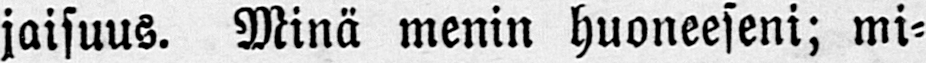jaisuus. Minä menin huoneeseni; mi-
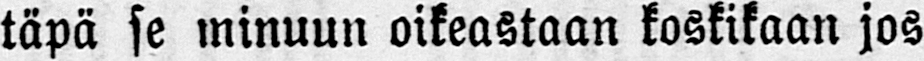täpä se minuun oikeastaan koskikaan jos
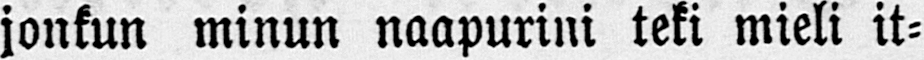jonkun minun naapurini teki mieli it-
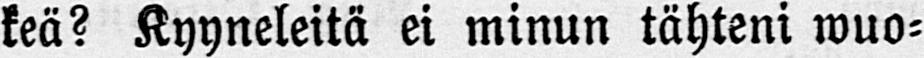keä? Kyyneleitä ei minun tähteni wuo-
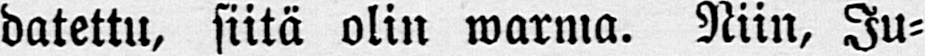datettu, siitä olin warma. Niin, Ju-
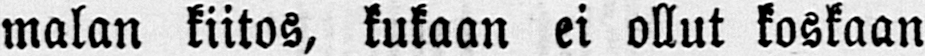malan kiitos, kukaan ei ollut koskaan
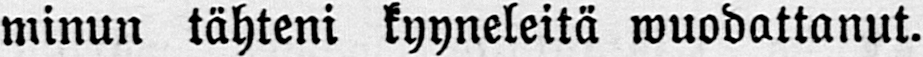minun tähteni kyyneleitä wodattanut.
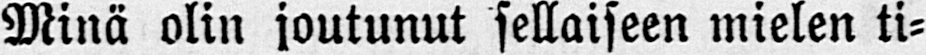Minä olin joutunut sellaiseen mielen ti-
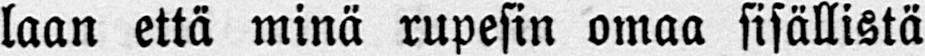laan että minä rupesin omaa sisällistä
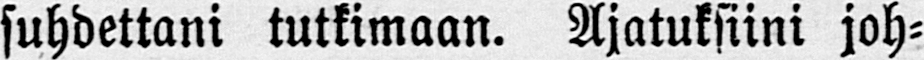suhdettani tutkimaan. Ajatuksiini joh-
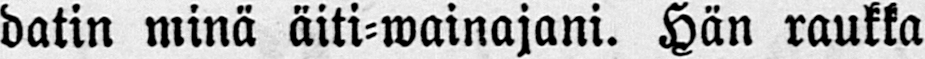datin minä äiti-wainajani. Hän raukka
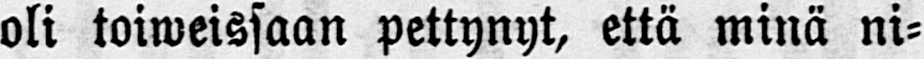oli toiweissaan pettynyt, että minä ni-
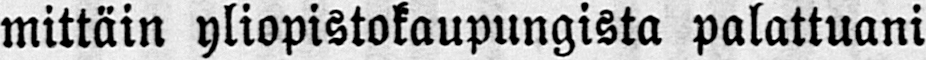mittäin yliopistokaupungista palattuani
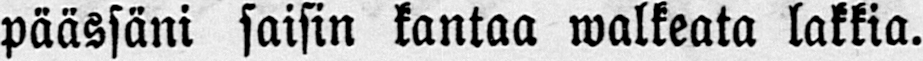päässäni saisin kantaa walkeata lakkia.
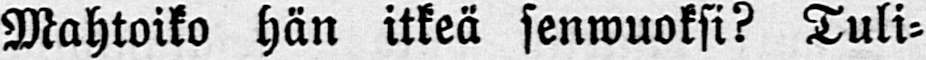Mahtoiko hän itkeä senwuoksi? Tuli-
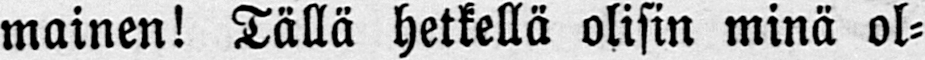mainen! Tällä hetkellä olisin minä ol-
